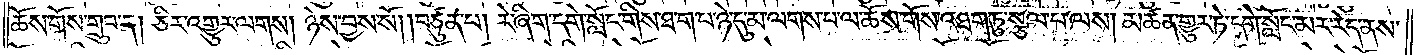ཆོས་གོས་གྲུབ་ན། ཅིར་འགྱུར་ལགས། ཉེས་བྱས་སོ། །བཙུན་པ། རེ་ཞིག་དགེ་སློང་གིས་ཐ་ག་པ་ཉེ་དུ་མ་ལགས་པ་ལ་ཆོས་གོས་འཐག་ཏུ་སྩལ་པ་ལས། མཚན་གྱུར་ཏེ་དགེ་སློང་མར་རེད་ནས་
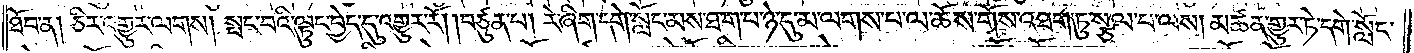ཐོབ་ན། ཅིར་འགྱུར་ལགས། སྤང་བའི་ལྟུང་བྱེད་དུ་འགྱུར་རོ། །བཙུན་པ། རེ་ཞིག་དགེ་སློང་མས་ཐ་ག་པ་ཉེ་དུ་མ་ལགས་པ་ལ་ཆོས་གོས་འཐག་ཏུ་སྩལ་པ་ལས། མཚན་གྱུར་ཏེ་དགེ་སློང་
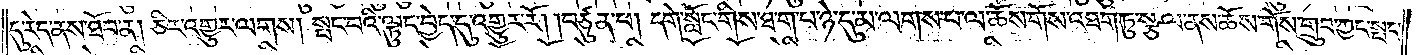དུ་རེད་ནས་ཐོབ་ན། ཅིར་འགྱུར་ལགས། སྤང་བའི་ལྟུང་བྱེད་དུ་འགྱུར་རོ། །བཙུན་པ། དགེ་སློང་གིས་ཐ་ག་པ་ཉེ་དུ་མ་ལགས་པ་ལ་ཆོས་གོས་འཐག་ཏུ་སྩལ་ནས་ཆོས་གོས་གྲུབ་ཀྱང་སྤང་
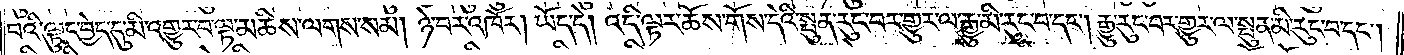བའི་ལྟུང་བྱེད་དུ་མི་འགྱུར་བ་ལྟ་མཆིས་ལགས་སམ། ཉེ་བར་འཁོར། ཡོད་དེ། འདི་ལྟར་ཆོས་གོས་དེའི་སྤུན་རུང་བར་གྱུར་ལ་རྒྱུ་མི་རུང་བ་དང༌། རྒྱུ་རུང་བར་གྱུར་ལ་སྤུན་མི་རུང་བ་དང༌།
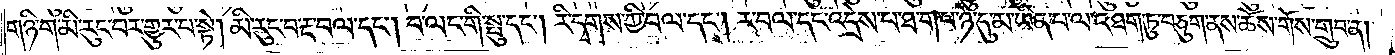གཉི་ག་མི་རུང་བར་གྱུར་པ་སྟེ། མི་རུང་བ་རྔ་བལ་དང༌། བ་ལང་གི་སྤུ་དང༌། རི་དྭགས་ཀྱི་བལ་དང༌། ར་བལ་དང་འདྲེས་པ་ཐ་ག་པ་ཉེ་དུ་མ་ཡིན་པ་ལ་འཐག་ཏུ་བཅུག་ནས་ཆོས་གོས་གྲུབ་ན།
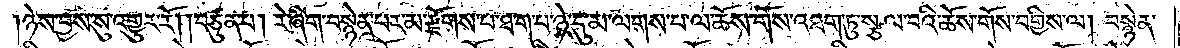།ཉེས་བྱས་སུ་འགྱུར་རོ། །བཙུན་པ། རེ་ཞིག་བསྙེན་པར་མ་རྫོགས་པ་ཐ་ག་པ་ཉེ་དུ་མ་ལགས་པ་ལ་ཆོས་གོས་འཐག་ཏུ་སྩལ་པའི་ཆོས་གོས་བགྱིས་ལ། བསྙེན་
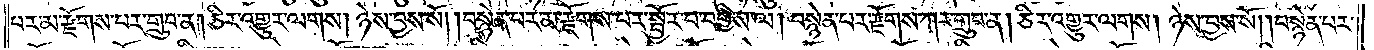པར་མ་རྫོགས་པར་གྲུབ་ན། ཅིར་འགྱུར་ལགས། ཉེས་བྱས་སོ། །བསྙེན་པར་མ་རྫོགས་པར་སྦྱོར་བ་བགྱིས་ལ། བསྙེན་པར་རྫོགས་ཀར་གྲུབ་ན། ཅིར་འགྱུར་ལགས། ཉེས་བྱས་སོ། །བསྙེན་པར་
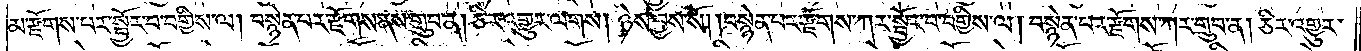མ་རྫོགས་པར་སྦྱོར་བ་བགྱིས་ལ། བསྙེན་པར་རྫོགས་ནས་གྲུབ་ན། ཅིར་འགྱུར་ལགས། ཉེས་བྱས་སོ། །བསྙེན་པར་རྫོགས་ཀར་སྦྱོར་བ་བགྱིས་ལ། བསྙེན་པར་རྫོགས་ཀར་གྲུབ་ན། ཅིར་འགྱུར་
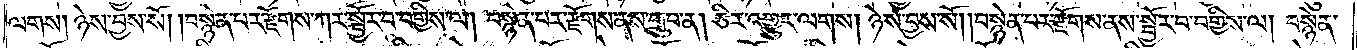ལགས། ཉེས་བྱས་སོ། །བསྙེན་པར་རྫོགས་ཀར་སྦྱོར་བ་བགྱིས་ལ། བསྙེན་པར་རྫོགས་ནས་གྲུབ་ན། ཅིར་འགྱུར་ལགས། ཉེས་བྱས་སོ། །བསྙེན་པར་རྫོགས་ནས་སྦྱོར་བ་བགྱིས་ལ། བསྙེན་
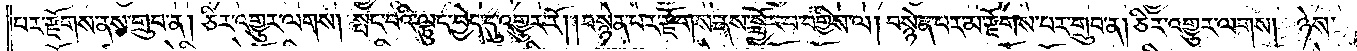པར་རྫོགས་ནས་གྲུབ་ན། ཅིར་འགྱུར་ལགས། སྤང་བའི་ལྟུང་བྱེད་དུ་འགྱུར་རོ། །བསྙེན་པར་རྫོགས་ནས་སྦྱོར་བ་བགྱིས་ལ། བསྙེན་པར་མ་རྫོགས་པར་གྲུབ་ན། ཅིར་འགྱུར་ལགས། ཉེས་
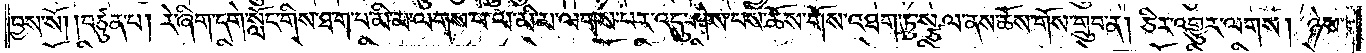བྱས་སོ། །བཙུན་པ། རེ་ཞིག་དགེ་སློང་གིས་ཐ་ག་པ་མི་མ་ལགས་པ་ལ་མི་མ་ལགས་པར་འདུ་ཤེས་པས་ཆོས་གོས་འཐག་ཏུ་སྩལ་ནས་ཆོས་གོས་གྲུབ་ན། ཅིར་འགྱུར་ལགས། ཉེས་
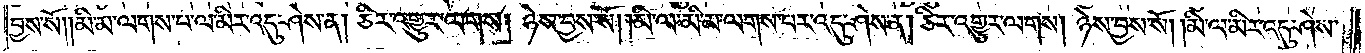བྱས་སོ། །མི་མ་ལགས་པ་ལ་མིར་འདུ་ཤེས་ན། ཅིར་འགྱུར་ལགས། ཉེས་བྱས་སོ། །མི་ལ་མི་མ་ལགས་པར་འདུ་ཤེས་ན། ཅིར་འགྱུར་ལགས། ཉེས་བྱས་སོ། །མི་ལ་མིར་འདུ་ཤེས་
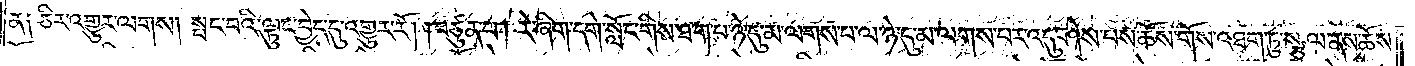ན༑ ཅིར་འགྱུར་ལགས། སྤང་བའི་ལྟུང་བྱེད་དུ་འགྱུར་རོ། །བཙུན་པ། རེ་ཞིག་དགེ་སློང་གིས་ཐ་ག་པ་ཉེ་དུ་མ་ལགས་པ་ལ་ཉེ་དུ་མ་ལགས་པར་འདུ་ཤེས་པས་ཆོས་གོས་འཐག་ཏུ་སྩལ་ནས་ཆོས་
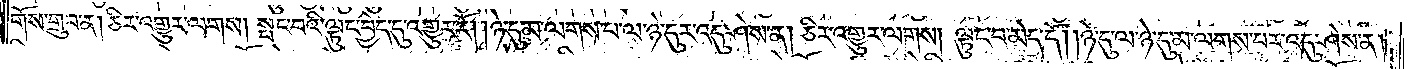གོས་གྲུབ་ན། ཅིར་འགྱུར་ལགས། སྤང་བའི་ལྟུང་བྱེད་དུ་འགྱུར་རོ། །ཉེ་དུ་མ་ལགས་པ་ལ་ཉེ་དུར་འདུ་ཤེས་ན། ཅིར་འགྱུར་ལགས། ལྟུང་བ་མེད་དོ། །ཉེ་དུ་ལ་ཉེ་དུ་མ་ལགས་པར་འདུ་ཤེས་ན།
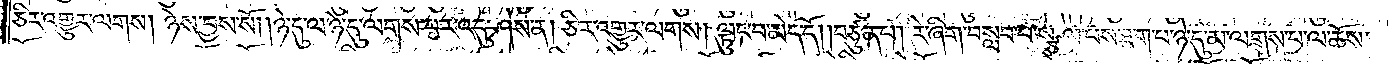ཅིར་འགྱུར་ལགས། ཉེས་བྱས་སོ། །ཉེ་དུ་ལ་ཉེ་དུ་ལགས་པར་འདུ་ཤེས་ན། ཅིར་འགྱུར་ལགས། ལྟུང་བ་མེད་དོ། །བཙུན་པ། རེ་ཞིག་བསླབ་པ་སྩལ་པས་ཐ་ག་པ་ཉེ་དུ་མ་ལགས་པ་ལ་ཆོས་
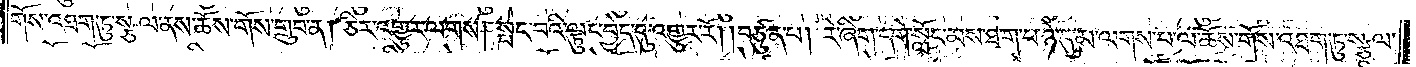གོས་འཐག་ཏུ་སྩལ་ནས་ཆོས་གོས་གྲུབ་ན། ཅིར་འགྱུར་ལགས། སྤང་བའི་ལྟུང་བྱེད་དུ་འགྱུར་རོ། །བཙུན་པ། རེ་ཞིག་དགེ་སློང་མས་ཐ་ག་པ་ཉེ་དུ་མ་ལགས་པ་ལ་ཆོས་གོས་འཐག་ཏུ་སྩལ་
